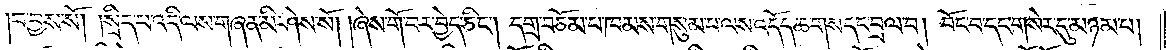བ་བྱས་སོ། །སྲིད་པ་འདི་ལས་གཞན་མི་ཤེས་སོ་ཞེས་གོ་བར་བྱེད་ཅིང༌། དགྲ་བཅོམ་པ་ཁམས་གསུམ་པ་ལས་འདོད་ཆགས་དང་བྲལ་བ། བོང་བ་དང་གསེར་དུ་མཉམ་པ།
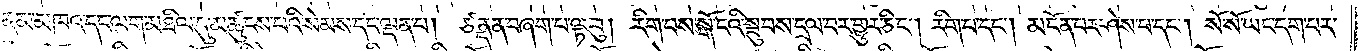ནམ་མཁའ་དང་ལག་མཐིལ་དུ་མཚུངས་པའི་སེམས་དང་ལྡན་པ། ཙནྡན་བཞག་པ་ལྟ་བུ། རིག་པས་སྒོ་ངའི་སྤུབས་དྲལ་བར་གྱུར་ཅིང༌། རིག་པ་དང༌། མངོན་པར་ཤེས་པ་དང༌། སོ་སོ་ཡང་དག་པར་
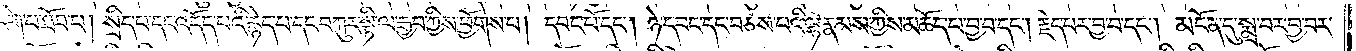རིག་པ་ཐོབ་པ། སྲིད་པ་དང༌འདོད་པའི་རྙེད་པ་དང་བཀུར་སྟི་ལ་རྒྱབ་ཀྱིས་ཕྱོགས་པ། དབང་པོ་དང༌། ཉེ་དབང་དང་བཅས་པའི་ལྷ་རྣམས་ཀྱིས་མཆོད་པར་བྱ་བ་དང༌། རྗེད་པར་བྱ་བ་དང༌། མངོན་དུ་སྨྲ་བར་བྱ་བར་
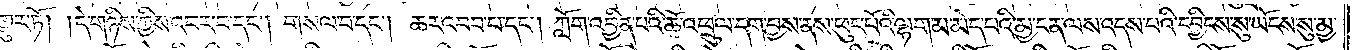གྱུར་ཏོ། །དེ་གཉིས་ཀྱིས་འབར་བ་དང༌། གསལ་བ་དང༌། ཆར་འབབ་པ་དང༌། ཀློག་འབྱིན་པའི་ཚེ་འཕྲུལ་དག་བྱས་ནས་ཕུང་པོ་ལྷག་མ་མེད་པའི་མྱ་ངན་ལས་འདས་པའི་དབྱིངས་སུ་ཡོངས་སུ་མྱ་
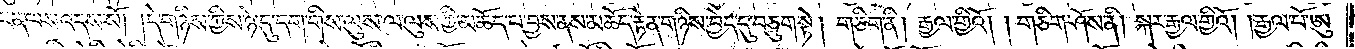ངན་ལས་འདས་སོ། །དེ་གཉིས་ཀྱི་ཉེ་དུ་དག་གིས་ལུས་ལ་ལུས་ཀྱི་མཆོད་པ་བྱས་ནས་མཆོད་རྟེན་གཉིས་བྱེད་དུ་བཅུག་སྟེ། གཅིག་ནི། རྒྱལ་གྱིའོ། །ཅིག་ཤོས་ནི། སྐར་རྒྱལ་གྱིའོ། །རྒྱལ་པོ་ཨུ་
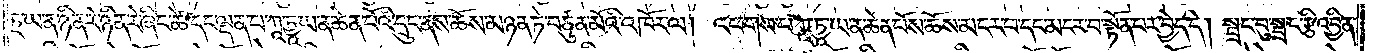ཏྲ་ཡ་ན་ཉིན་རེ་ཉིན་རེ་ཞིང་ཚེ་དང་ལྡན་པ་ཀཱ་ཏྱཱ་ཡ་ན་ཆེན་པོའི་དྲུང་དུ་སོང་ནས་ཆོས་མཉན་ཏེ་བཙུན་མོའི་འཁོར་ལ། འཕགས་པ་ཀཱ་ཏྱཱ་ཡ་ན་ཆེན་པོས་མངར་བ་དང་མངར་བ་སྟོན་པར་བྱེད་དེ། སྦྲང་བུ་སྦྲང་རྩི་འབྱིན་
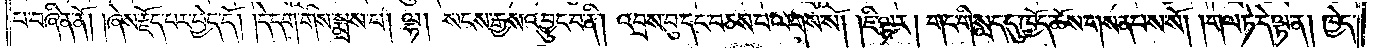པ་བཞིན་ནོ། །ཞེས་བརྗོད་པར་བྱེད་དོ། །དེ་དག་གིས་སྨྲས་པ། ལྷ། སངས་རྒྱས་འབྱུང་བ་ནི། འབྲས་བུ་དང་བཅས་པ་ལགས་སོ། །ཇི་ལྟར། གང་གི་སླད་དུ་ཁྱོད་ཆོས་གསན་པས་སོ། །གལ་ཏེ་དེ་ལྟ་ན། ཁྱེད་
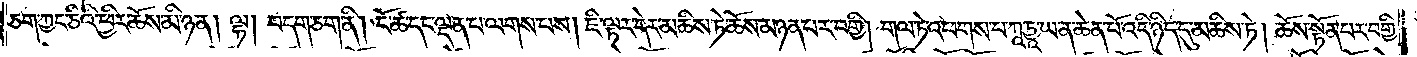ཅག་ཀྱང་ཅིའི་ཕྱིར་ཆོས་མི་ཉན། ལྷ། བདག་ཅག་ནི། ངོ་ཚ་དང་ལྡན་པ་ལགས་པས། ཇི་ལྟར་དེར་མཆིས་ཏེ་ཆོས་མཉན་པར་བགྱི། གལ་ཏེ་འཕགས་པ་ཀཱ་ཏྱཱ་ཡ་ན་ཆེན་པོ་འདི་ཉིད་དུ་མཆིས་ཏེ། ཆོས་སྟོན་པར་བགྱི་
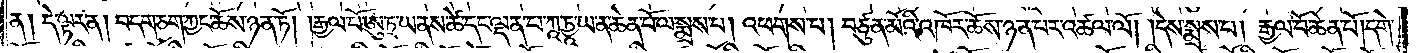ན། དེ་ལྟ་ན། བདག་ཅག་ཀྱང་ཆོས་ཉན་ཏོ། །རྒྱལ་པོ་ཨུ་ཏྲ་ཡ་ནས་ཚེ་དང་ལྡན་པ་ཀཱ་ཏྱཱ་ཡ་ན་ཆེན་པོ་ལ་སྨྲས་པ། འཕགས་པ། བཙུན་མོའི་འཁོར་ཆོས་ཉན་པར་འཚལ་ལོ། །དེས་སྨྲས་པ། རྒྱལ་པོ་ཆེན་པོ། དགེ་
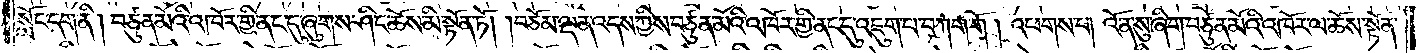སློང་དག་ནི། བཙུན་མོའི་འཁོར་གྱི་ནང་དུ་ཞུགས་ཤིང་ཆོས་མི་སྟོན་ཏོ། །བཅོམ་ལྡན་འདས་ཀྱིས་བཙུན་མོའི་འཁོར་གྱི་ནང་དུ་འཇུག་པ་བཀག་གོ། །འཕགས་པ། འོ་ན་སུ་ཞིག་བཙུན་མོའི་འཁོར་ལ་ཆོས་སྟོན་
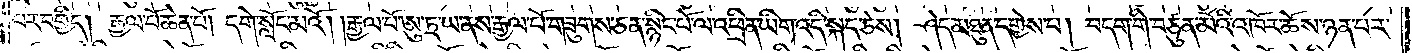པར་བགྱིད། རྒྱལ་པོ་ཆེན་པོ། དགེ་སློང་མའོ། །རྒྱལ་པོ་ཨུ་ཏྲ་ཡ་ནས་རྒྱལ་པོ་གཟུགས་ཅན་སྙིང་པོ་ལ་ཕྲིན་ཡིག་འདི་སྐད་ཅེས། ཤེད་མཐུན་དགྱེས་པ། བདག་གི་བཙུན་མོའི་འཁོར་ཆོས་ཉན་པར་
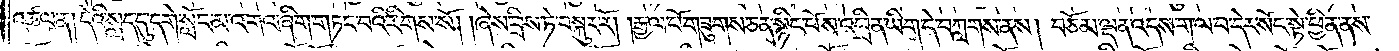འཚལ་ན། དེའི་སླད་དུ་དགེ་སློང་མ་འགའ་ཞིག་གཏང་བའི་རིགས་སོ། །ཞེས་བྲིས་ཏེ་བསྐུར་རོ། །རྒྱལ་པོ་གཟུགས་ཅན་སྙིང་པོས་ཕྲིན་ཡིག་དེ་བཀླགས་ནས/_བཅོམ་ལྡན་འདས་ག་ལ་བ་དེར་སོང་སྟེ་ཕྱིན་ནས་
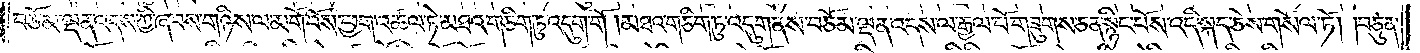བཅོམ་ལྡན་འདས་ཀྱི་ཞབས་གཉིས་ལ་མགོ་བོས་ཕྱག་འཚལ་ཏེ་མཐའ་གཅིག་ཏུ་འདུག་གོ། །མཐའ་གཅིག་ཏུ་འདུག་ནས་བཅོམ་ལྡན་འདས་ལ་རྒྱལ་པོ་གཟུགས་ཅན་སྙིང་པོས་འདི་སྐད་ཅེས་གསོལ་ཏོ། །བཙུན་
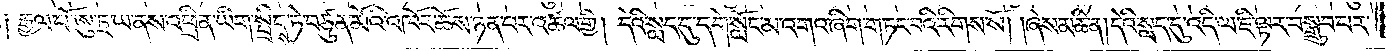རྒྱལ་པོ་ཨུ་ཏྲ་ཡ་ནས་ཕྲིན་ཡིག་སྤྲིང་སྟེ་བཙུན་མོའི་འཁོར་ཆོས་ཉན་པར་འཚལ་གྱི། དེའི་སླད་དུ་དགེ་སློང་མ་འགའ་ཞིག་གཏང་བའི་རིགས་སོ། །ཞེས་མཆི་ན། དེའི་སླད་དུ་འདི་ལ་ཇི་ལྟར་བསྒྲུབ་པར།
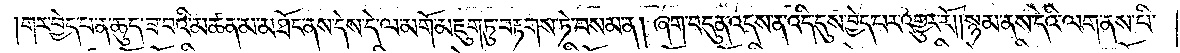།གར་བྱེད་པ་ན་ཆུད་ཟ་བའི་མཚན་མ་མཐོང་ནས་དེས་དེ་ལ་མགོ་མཇུག་ཏུ་བརྟགས་ཏེ་བསམ་ན། ཞག་བདུན་འདས་ན་འདི་དུས་བྱེད་པར་འགྱུར་རོ། །སྙམ་ནས་དེའི་ལག་ནས་པི་
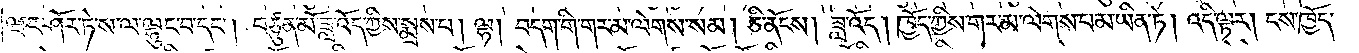ཝང་ཤོར་ཏེ་ས་ལ་ལྷུང་བ་དང༌། བཙུན་མོ་ཟླ་འོད་ཀྱིས་སྨྲས་པ། ལྷ། བདག་གི་གར་མ་ལེགས་སམ། ཅི་ནོངས། ཟླ་འོད། ཁྱོད་ཀྱིས་གར་མ་ལེགས་པ་མ་ཡིན་ཏེ། འདི་ལྟར། ངས་ཁྱོད་
